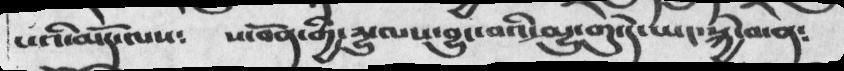པའི་མདོ་ལས༴    ས་བོན་གྱི་དྱུ་ལས་བྱུང་བའི་མྱུ་གུ་དེ་ཡང་སྐྱེ་བ་ན༴
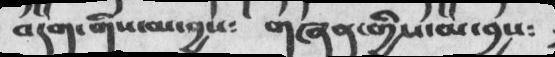བདག་གིས་མ་བྱས༴   གཞན་གྱིས་མ་བྱས༴
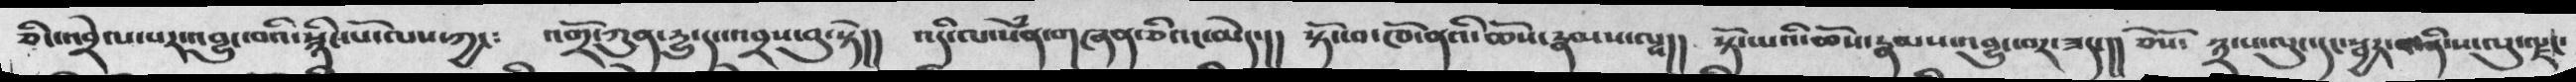ཅིང་འབྲེལ་པར་འབྱུང་བའི་སྙིང་པོ་ལས་ཀྱང༴  འགྲོ་ཀུན་དྱུ་དང་འབྲས་བུ་སྟེ།།  འདི་ལ་སེཾན་གཞན་ཅིའང་མེད་།།  སྟོང་བ་ཁོ་ནའི་ཆོས་རྣམས་ལས།།  སྟོང་པའི་ཆོས་རྣམས་འབྱུང་བར་ཟད་།།  ཅེསོ༴  ༣་པ་ལུང་དང་སྦྱར་བ་ནི་ས་ལུ་ལྗང་
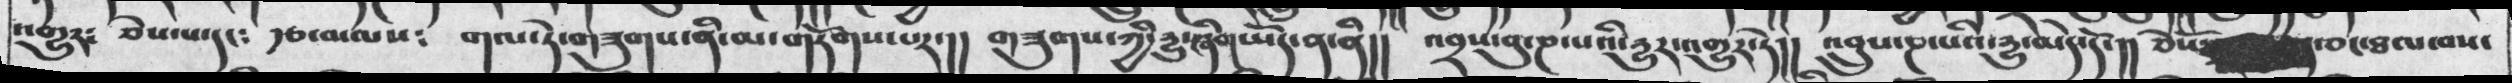འགྱུར༴  ཅེས་པ་དང༴  རྩ་བ་ལས༴  གལ་ཏེ་གཟུགས་ནི་མ་གཏོགས་པར་།།  གཟུགས་ཀྱི་དྱུ་ཞིག་ཡོད་ན་ནི།།  འབྲས་བུ་ཎ་པའི་དྱུར་འགྱུར་ཏེ།།  འབྲུས་ཎ་པའི་དྱུ་མེད་དོ་།།  ཅེསོ་བང་ཐལ་བས་
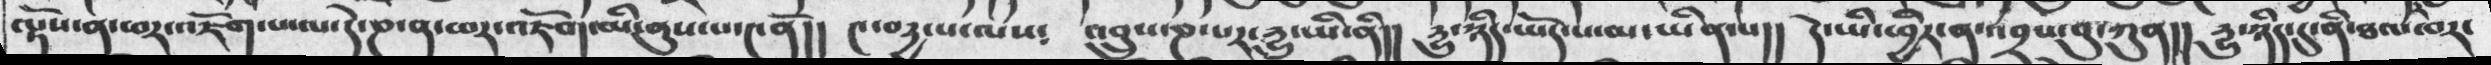ལྟོས་ན་ཕར་འཇོག་པ་ལ་དེ་ཎ་ན་ཕར་འཇོག་མི་ནུས་པ་༤ནོ།།   ༤་བདྱ་པ་ལས༴  འབྲུས་ཎ་པར་དྱུ་ཡི་ནི།།  དྱུ་ཉིད་ཡོད་པ་མ་ཡིན་པ།།    དེ་ཡི་ཕྱིར་ན་འབྲས་བུ་ཀུན།།   དྱུ་ཉིད་དུ་ནི་ཐལ་བར་
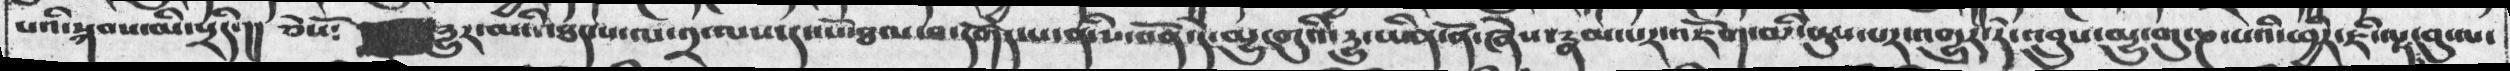པའི་སྐབས་མི་སྲིད་།།  ཅེསོ༴  དྱུར་མི་འཐད་པ་ལ་༢་ལས་དང་པོ་ཐལ་བ་དགོད་པ་ནི་ས་བོན་དེ་མྱུ་གུའི་དྱུ་ཡིན་ནོ་ཞེས་རྣམ་པར་འཇོག་མི་ནུས་པར་འགྱུར་རོ་འབྲུས་མྱུ་གུ་ཎ་པའི་ཕྱིར་ཇི་ལྟ་བུ་ལ་
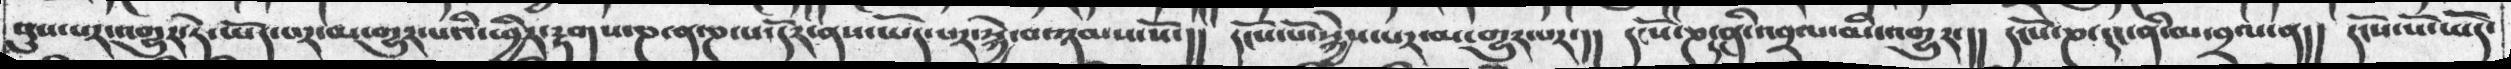ནུས་པར་འགྱུར་ཏེ་ཡོད་པར་མ་གྱུར་པའི་ཕྱིར་རྟགས་ཎ་ན་ཎ་པ་དོར་ནས་ཡོད་པར་སྐྱེ་བ་ཉམས་སོ་།།  དངོས་པོ་སྐྱེས་པར་མ་གྱུར་པར་།།   དངོས་ཎ་ནི་འབྲལ་མི་འགྱུར་།།  དངོས་ཎ་དང་ནི་མ་བྲལ་ན།།  དངོས་པོ་ཡོད་
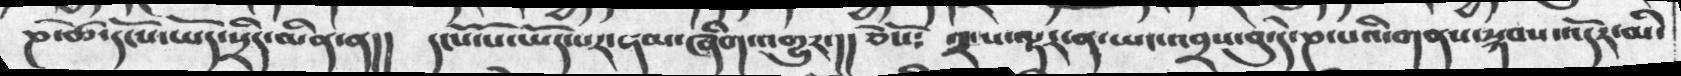ཎ་ཚེ་དངོས་ཡོད་སྲིད་མིན་ན།།    དངོས་པོ་ཡོད་པར་ནམ་ཞིག་འགྱུར་།།  ཅེསོ༴ ༢་པ་ལྟར་ན་ཡང་འབྲས་བུ་དེ་ཎ་པའི་གནས་སྐབས་འདོར་མི་
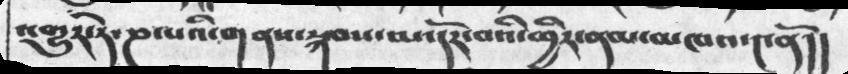འགྱུར་ཏེ་ཎ་པའི་གནས་སྐབས་མ་དོར་བའི་ཕྱིར་ནམ་མཁའ་༤ནོ།།
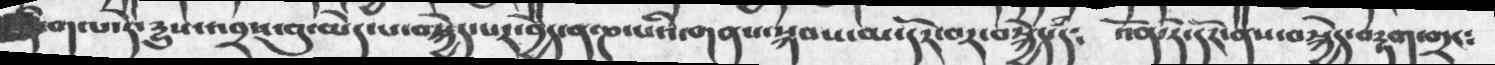གལ་ཏེ་དྱུས་འབྲས་བུ་མེད་པ་བསྐྱེད་པར་བྱེད་ན་ཎ་པའ་གནས་སྐབས་མ་དོར་བ་བསྐྱེད་དཾ༴  འོན་ཏེ་དོར་ནས་བསྐྱེད་བརྟག་གྲང༴
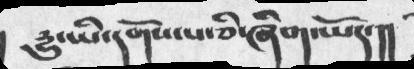དྱུ་ཡི་དགོས་པ་ཅི་ཞིག་ཡོད་།།
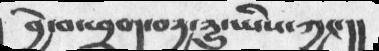བྱེ་བ་ཕྲག་བདྱ་དྱུ་ཡིས་ཀྱང་།།
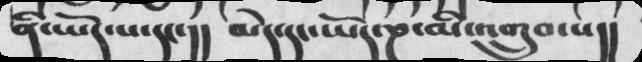ནི་ཡོད་པ་དང་།།   མེད་དང་ཡོད་ཎ་མི་འགྲུབ་པ།།
